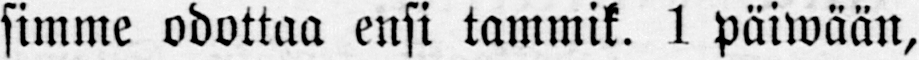simme odottaa ensi tammik. 1 päiwään,
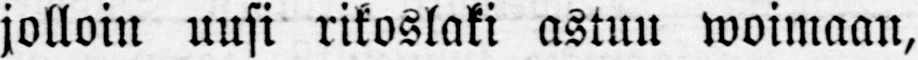jolloin uusi rikoslaki astuu woimaan,
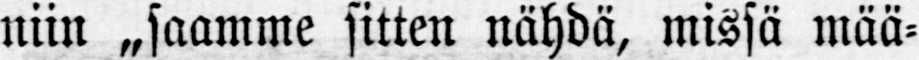niin „saamme sitten nähdä, missä mää-
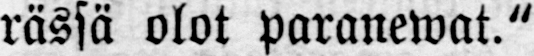rässä olot paranewat."
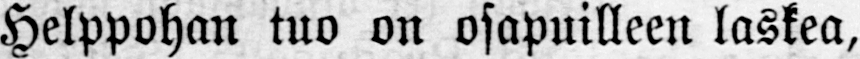Helppohan tuo on osapuilleen laskea,
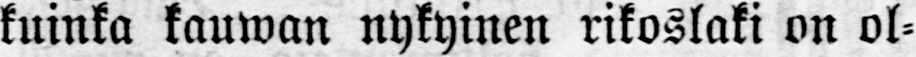kuinka kauwan nykyinen rikoslaki on ol-
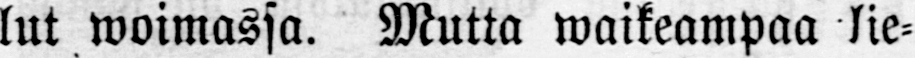lut woimassa. Mutta waikeampaa lie-
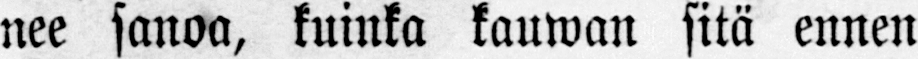nee sanoa, kuinka kauwan sitä ennen
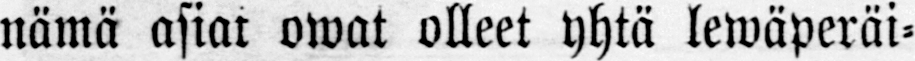nämä asiat owat olleet yhtä lewäperäi-
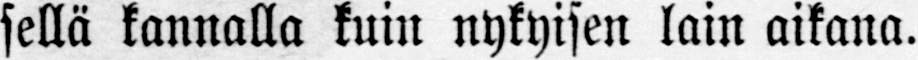sellä kannalla kuin nykyisen lain aikana.
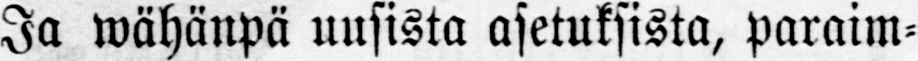Ja wähänpä uusista asetuksista, paraim-
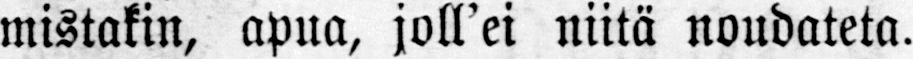mistakin, apua, joll'ei niitä noudateta.
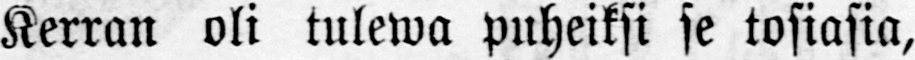Kerran oli tulewa puheiksi se tosiasia,
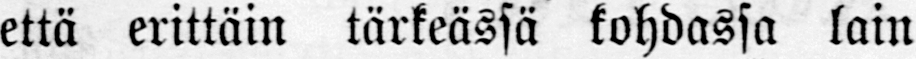että erittäin tärkeässä kohdassa lain
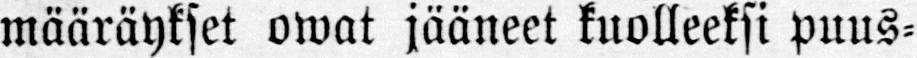määräykset owat jääneet kuolleeksi puus-
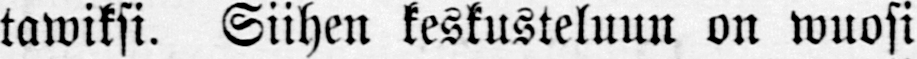tawiksi. Siihen keskusteluun on wuosi
